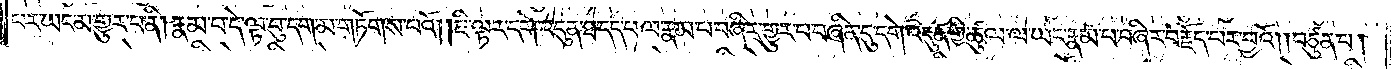པར་ཡང་མ་གྱུར་པ་ནི། རྣམ་པ་དེ་ལྟ་བུ་དག་མ་གཏོགས་པའོ། །ཇི་ལྟར་དགེ་འདུན་ཐ་དད་པ་ལ་རྣམ་པ་བཞིར་གྱུར་པ་བཞིན་དུ་དགེ་འདུན་གྱི་ཚུལ་ལ་ཡང་རྣམ་པ་བཞིར་བརྗོད་པར་བྱའོ། །བཙུན་པ།
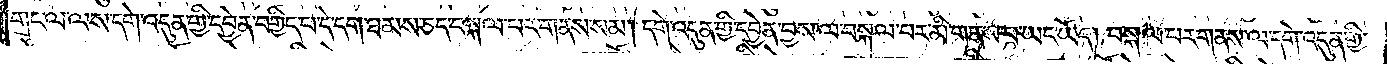གང་ལ་ལས་དགེ་འདུན་གྱི་དབྱེན་བགྱིད་པ་དེ་དག་ཐམས་ཅད་བསྐལ་པར་གནས་སམ། དགེ་འདུན་གྱི་དབྱེན་བྱས་ལ་བསྐལ་པར་མི་གནས་པ་ཡང་ཡོད། བསྐལ་པར་གནས་ལ་དགེ་འདུན་གྱི་
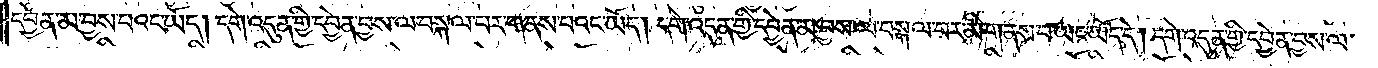དབྱེན་མ་བྱས་པའང་ཡོད། དགེ་འདུན་གྱི་དབྱེན་བྱས་ལ་བསྐལ་པར་གནས་པའང་ཡོད། དགེ་འདུན་གྱི་དབྱེན་མ་བྱས་ལ་བསྐལ་པར་མི་གནས་པ་ཡང་ཡོད་དེ། དགེ་འདུན་གྱི་དབྱེན་བྱས་ལ་
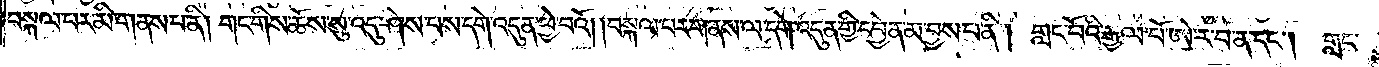བསྐལ་པར་མི་གནས་པ་ནི། གང་གིས་ཆོས་སུ་འདུ་ཤེས་པས་དགེ་འདུན་ཕྱེ་བའོ། །བསྐལ་པར་གནས་ལ་དགེ་འདུན་གྱི་དབྱེན་མ་བྱས་པ་ནི། བླང་པོའི་རྒྱལ་པོ་ཨེ་ར་བ་ན་དང༌། གླང་
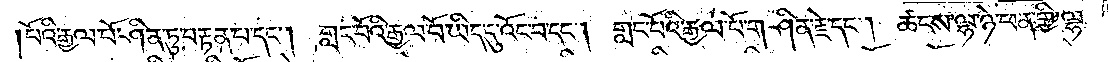པོའི་རྒྱལ་པོ་ཤིན་ཏུ་བརྟན་པ་དང༌། གླང་པོའི་རྒྱལ་པོ་ཡིད་དུ་འོང་བ་དང༌། གླང་པོའི་རྒྱལ་པོ་གཤིན་རྗེ་དང༌། ཚངས་ལྷ་ཉེ་ཕན་གྱི་ལྷ་
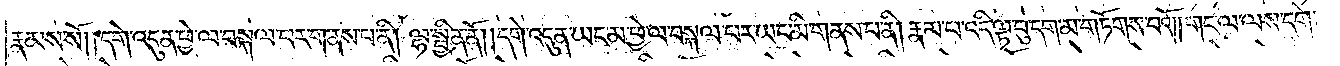རྣམས་སོ། །དགེ་འདུན་ཕྱེ་ལ་བསྐལ་བར་གནས་པ་ནི། ལྷ་སྦྱིན་ནོ། །དགེ་འདུན་ཡང་མ་ཕྱེ་ལ་བསྐལ་པར་ཡང་མི་གནས་པ་ནི། རྣམ་པ་འདི་ལྟ་བུ་དག་མ་གཏོགས་པའོ། །གང་ལ་ལས་དགེ་
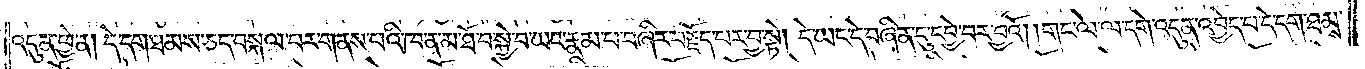འདུན་ཕྱེ་ན། དེ་དག་ཐམས་ཅད་བསྐལ་པར་གནས་པའི་ཁ་ན་མ་ཐོ་བ་སྐྱེ་བ་ཡང་རྣམ་པ་བཞིར་བརྗོད་པར་བྱ་སྟེ། དེ་ཡང་དེ་བཞིན་དུ་དབྱེ་བར་བྱའོ། །གང་ལ་ལ་དགེ་འདུན་འབྱེད་པ་དེ་དག་ཐམས་
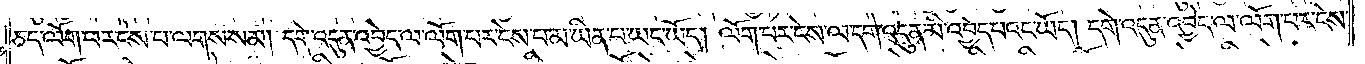ཅད་ལོག་པར་ངེས་པ་ལགས་སམ། དགེ་འདུན་འབྱེད་ལ་ལོག་པར་ངེས་པ་མ་ཡིན་པ་ཡང་ཡོད། ལོག་པར་ངེས་ལ་དགེ་འདུན་མི་འབྱེད་པའང་ཡོད། དགེ་འདུན་འབྱེད་ལ་ལོག་པར་ངེས་
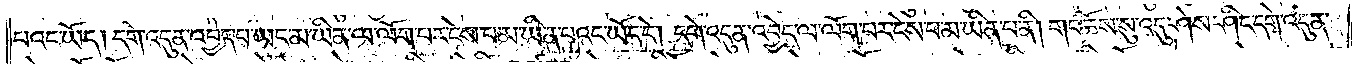པའང་ཡོད། དགེ་འདུན་འབྱེད་པ་ཡང་མ་ཡིན་ལ་ལོག་པར་ངེས་པ་མ་ཡིན་པའང་ཡོད་དེ། དགེ་འདུན་འབྱེད་ལ་ལོག་པར་ངེས་པ་མ་ཡིན་པ་ནི། གང་ཆོས་སུ་འདུ་ཤེས་ཤིང་དགེ་འདུན་
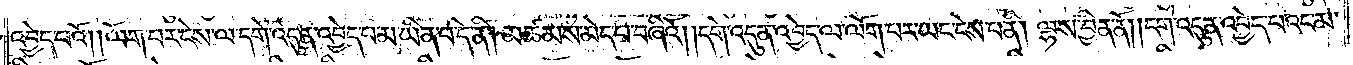འབྱེད་པའོ། །ལོག་པར་ངེས་ལ་དགེ་འདུན་འབྱེད་པ་མ་ཡིན་པ་དེ་ནི། མཚམས་མེད་པ་བཞིའོ། །དགེ་འདུན་འབྱེད་ལ་ལོག་པར་ཡང་ངེས་པ་ནི། ལྷས་བྱིན་ནོ། །དགེ་འདུན་འབྱེད་པའང་མ་
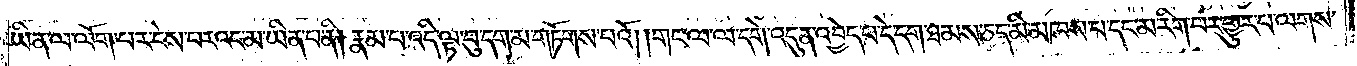ཡིན་ལ་ལོག་པར་ངེས་པར་འང་མ་ཡིན་པ་ནི། རྣམ་པ་འདི་ལྟ་བུ་དག་མ་གཏོགས་པའོ། །གང་ལ་ལ་དགེ་འདུན་འབྱེད་པ་དེ་དག་ཐམས་ཅད་མི་མཁས་པ་དང་མ་རིག་པར་གྱུར་པ་ལགས་
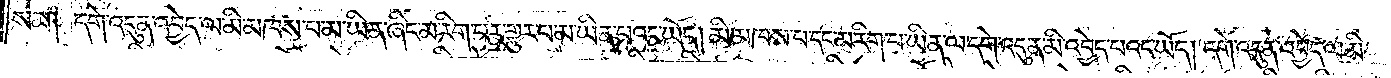སམ༑ དགེ་འདུན་འབྱེད་ལ་མི་མཁས་པ་མ་ཡིན་ཞིང་མ་རིག་པར་གྱུར་པ་མ་ཡིན་པའང་ཡོད། མི་མཁས་པ་དང་མ་རིག་པ་ཡིན་ལ་དགེ་འདུན་མི་འབྱེད་པའང་ཡོད། དགེ་འདུན་འབྱེད་ལ་མི་
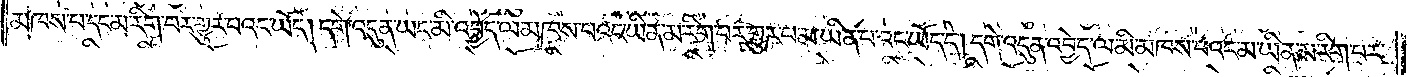མཁས་པ་དང་མ་རིག་པར་གྱུར་པའང་ཡོད། དགེ་འདུན་ཡང་མི་འབྱེད་ལ་མཁས་པའང་ཡིན་མ་རིག་པར་གྱུར་པ་མ་ཡིན་པའང་ཡོད་དེ། དགེ་འདུན་འབྱེད་ལ་མི་མཁས་པའང་མ་ཡིན་མ་རིག་པར་
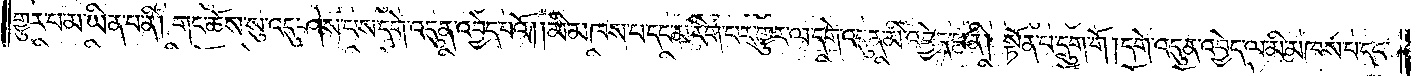གྱུར་པ་མ་ཡིན་པ་ནི། གང་ཆོས་སུ་འདུ་ཤེས་པས་དགེ་འདུན་འབྱེད་པའོ། །མི་མཁས་པ་དང་མ་རིག་པར་གྱུར་ལ་དགེ་འདུན་མི་འབྱེད་པ་ནི། སྟོན་པ་དྲུག་གོ །དགེ་འདུན་འབྱེད་ལ་མི་མཁས་པ་དང་
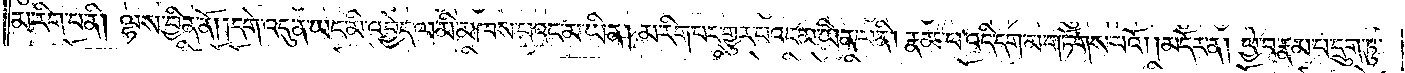མ་རིག་པ་ནི། ལྷས་བྱིན་ནོ། །དགེ་འདུན་ཡང་མི་འབྱེད་ལ་མི་མཁས་པའང་མ་ཡིན། མ་རིག་པར་གྱུར་པའང་མ་ཡིན་པ་ནི། རྣམ་པ་འདི་དག་མ་གཏོགས་པའོ། །མདོར་ན། ཕྱེ་བ་རྣམ་པ་དྲུག་ཏུ་
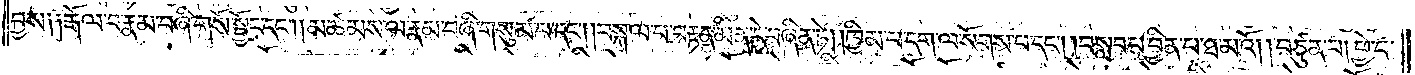བྱས༑ ༑རྒོལ་བ་རྣམ་བཞི་གསོ་སྦྱོང་དང༌། །མཚམས་ལ་རྣམ་བཞི་གསུམ་པ་དང༌། །བསྐལ་པ་བརྟན་མིན་དེ་བཞིན་ཏེ། །ཁྱིམ་པ་དག་ལ་སོགས་པ་དང༌། །བསླབ་པ་བྱིན་པ་ཐ་མའོ། །བཙུན་པ། ཕྱེ་བ་
